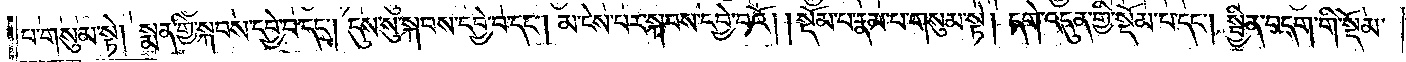པ་གསུམ་སྟེ། སྨན་གྱི་སྐབས་དབྱེ་བ་དང༌། དུས་སུ་སྐབས་དབྱེ་བ་དང༌། མ་ངེས་པར་སྐབས་དབྱེ་བའོ། །སྡོམ་པ་རྣམ་པ་གསུམ་སྟེ། དགེ་འདུན་གྱི་སྡོམ་པ་དང༌། སྦྱིན་བདག་གི་སྡོམ་
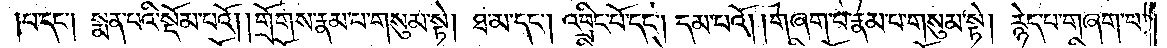པ་དང༌། སྨན་པའི་སྡོམ་པའོ། །གྲོགས་རྣམ་པ་གསུམ་སྟེ། ཐ་མ་དང༌། འབྲིང་པོ་དང༌། དམ་པའོ། །གཞག་པ་རྣམ་པ་གསུམ་སྟེ། རྙེད་པ་གཞག་པ་
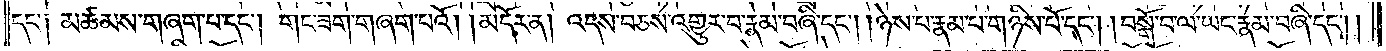དང་༑ མཚམས་གཞག་པ་དང༌། གང་ཟག་གཞག་པའོ། །མདོར་ན། འདས་བཅས་འགྱུར་བ་རྣམ་བཞི་དང༌། །ཉེས་པ་རྣམ་པ་གཉིས་པོ་དང༌། །བསྒོ་བ་ལ་ཡང་རྣམ་བཞི་དང༌། །
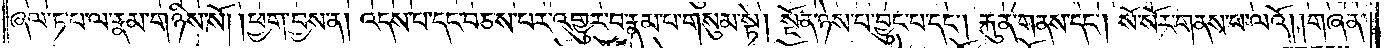ཞལ་ཏ་པ་ལ་རྣམ་གཉིས་སོ། །ཕྱག་བྱས་ན། འདས་པ་དང་བཅས་པར་འགྱུར་བ་རྣམ་པ་གསུམ་སྟེ། སྔོན་ཉེས་པ་བྱུང་བ་དང༌། རྐུན་གནས་དང༌། སོ་སོར་གནས་པ་ལའོ། །གཞན་
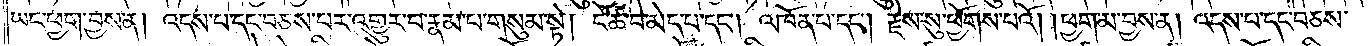ཡང་ཕྱག་བྱས་ན། འདས་པ་དང་བཅས་པར་འགྱུར་བ་རྣམ་པ་གསུམ་སྟེ། ངོ་ཚ་བ་མེད་པ་དང༌། འཁོན་པ་དང༌། རྗེས་སུ་ཕྱོགས་པའོ། །ཕྱག་མ་བྱས་ན། འདས་པ་དང་བཅས་
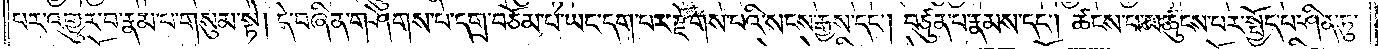པར་འགྱུར་བ་རྣམ་པ་གསུམ་སྟེ། དེ་བཞིན་གཤེགས་པ་དགྲ་བཅོམ་པ་ཡང་དག་པར་རྫོགས་པའི་སངས་རྒྱས་དང༌། བཙུན་པ་རྣམས་དང༌། ཚངས་པ་མཚུངས་པར་སྤྱོད་པ་ཤིན་ཏུ་
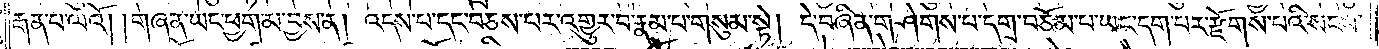རྒན་པ་ལའོ། །གཞན་ཡང་ཕྱག་མ་བྱས་ན། འདས་པ་དང་བཅས་པར་འགྱུར་བ་རྣམ་པ་གསུམ་སྟེ། དེ་བཞིན་གཤེགས་པ་དགྲ་བཅོམ་པ་ཡང་དག་པར་རྫོགས་པའི་སངས་
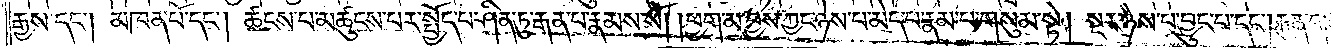རྒྱས་དང༌། མཁན་པོ་དང༌། ཚངས་པ་མཚུངས་པར་སྤྱོད་པ་ཤིན་ཏུ་རྒན་པ་རྣམས་སོ། །ཕྱག་མ་བྱས་ཀྱང་ཉེས་པ་མེད་པ་རྣམ་པ་གསུམ་སྟེ། སྔར་ཉེས་པ་བྱུང་བ་དང༌། རྐུན་གནས་
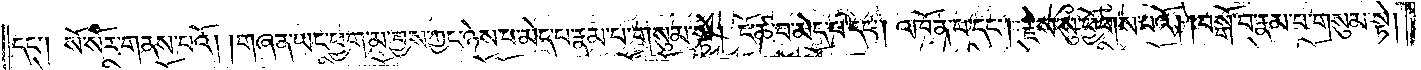དང༌། སོ་སོར་གནས་པའོ། །གཞན་ཡང་ཕྱག་མ་བྱས་ཀྱང་ཉེས་པ་མེད་པ་རྣམ་པ་གསུམ་སྟེ། ངོ་ཚ་བ་མེད་པ་དང༌། འཁོན་པ་དང༌། རྗེས་སུ་ཕྱོགས་པའོ། །བསྒོ་བ་རྣམ་པ་གསུམ་སྟེ།
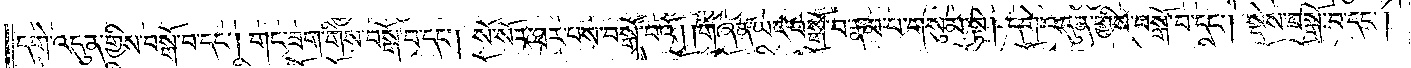དགེ་འདུན་གྱིས་བསྒོ་བ་དང༌། གང་ཟག་གིས་བསྒོ་བ་དང༌། སོ་སོར་ཐར་པས་བསྒོ་བའོ། །གཞན་ཡང་བསྒོ་བ་རྣམ་པ་གསུམ་སྟེ། དགེ་འདུན་གྱིས་བསྒོ་བ་དང༌། སྡེས་བསྒོ་བ་དང༌།
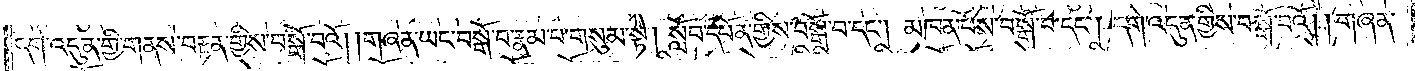དགེ་འདུན་གྱི་གནས་བརྟན་གྱིས་བསྒོ་བའོ། །གཞན་ཡང་བསྒོ་བ་རྣམ་པ་གསུམ་སྟེ། སློབ་དཔོན་གྱིས་བསྒོ་བ་དང༌། མཁན་པོས་བསྒོ་བ་དང༌། དགེ་འདུན་གྱིས་བསྒོ་བའོ། །གཞན་
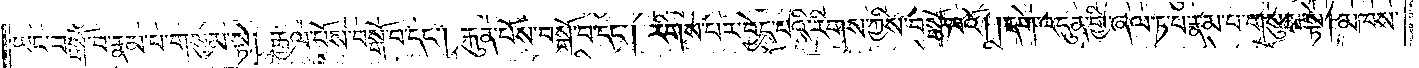ཡང་བསྒོ་བ་རྣམ་པ་གསུམ་སྟེ། རྒྱལ་པོས་བསྒོ་བ་དང༌། རྐུན་པོས་བསྒོ་བ་དང༌། རིགས་པར་བྱེད་པའི་རིགས་ཀྱིས་བསྒོ་བའོ། །དགེ་འདུན་གྱི་ཞལ་ཏ་པ་རྣམ་པ་གསུམ་སྟེ། མཁས་
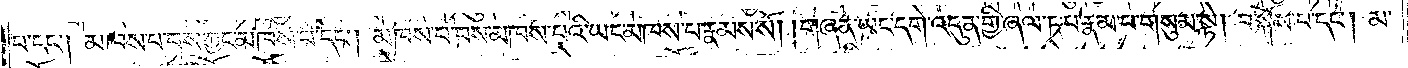པ་དང༌། མཁས་པ་བས་ཀྱང་མཁས་པ་དང༌། མཁས་པ་བས་མཁས་པའི་ཡང་མཁས་པ་རྣམས་སོ། །གཞན་ཡང་དགེ་འདུན་གྱི་ཞལ་ཏ་པ་རྣམ་པ་གསུམ་སྟེ། བསྐོས་པ་དང༌། མ་
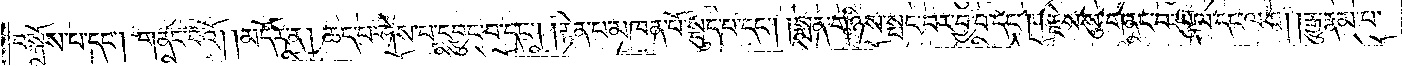བསྐོས་པ་དང༌། གནང་བའོ། །མདོར་ན། ཆད་པ་ཤེས་པ་དབྱུང་བ་དང༌། །རྟེན་པ་མཁན་པོ་སྡུད་པ་དང༌། །སྨན་གཉིས་སྤང་བར་བྱ་བ་དང༌། །རྗེས་སུ་གནང་བ་ཡུལ་དང་ལས། །རྒྱུ་རྣམ་པ་
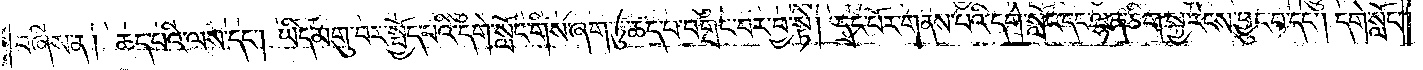བཞིས་ན། ཆད་པའི་ལས་དང༌། ཡིད་མགུ་པར་སྤྱོད་པའི་དགེ་སློང་གིས་ཞག་ཏུ་ཆད་པ་བགྲང་བར་བྱ་སྟེ། དྲང་པོར་གནས་པའི་དགེ་སློང་དང་ལྷན་ཅིག་སྐྱ་རེངས་བྱུང་བ་དང༌། དགེ་སློང་
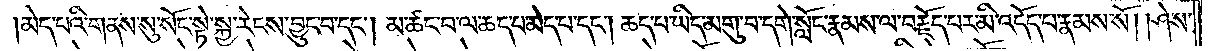མེད་པའི་གནས་སུ་སོང་སྟེ་སྐྱ་རེངས་བྱུང་བ་དང༌། མ་ཚང་བ་ལ་ཆད་པ་མེད་པ་དང༌། ཆད་པ་ཡིད་མགུ་བ་དགེ་སློང་རྣམས་ལ་བརྗོད་པར་མི་འདོད་པ་རྣམས་སོ། །ཤེས་
